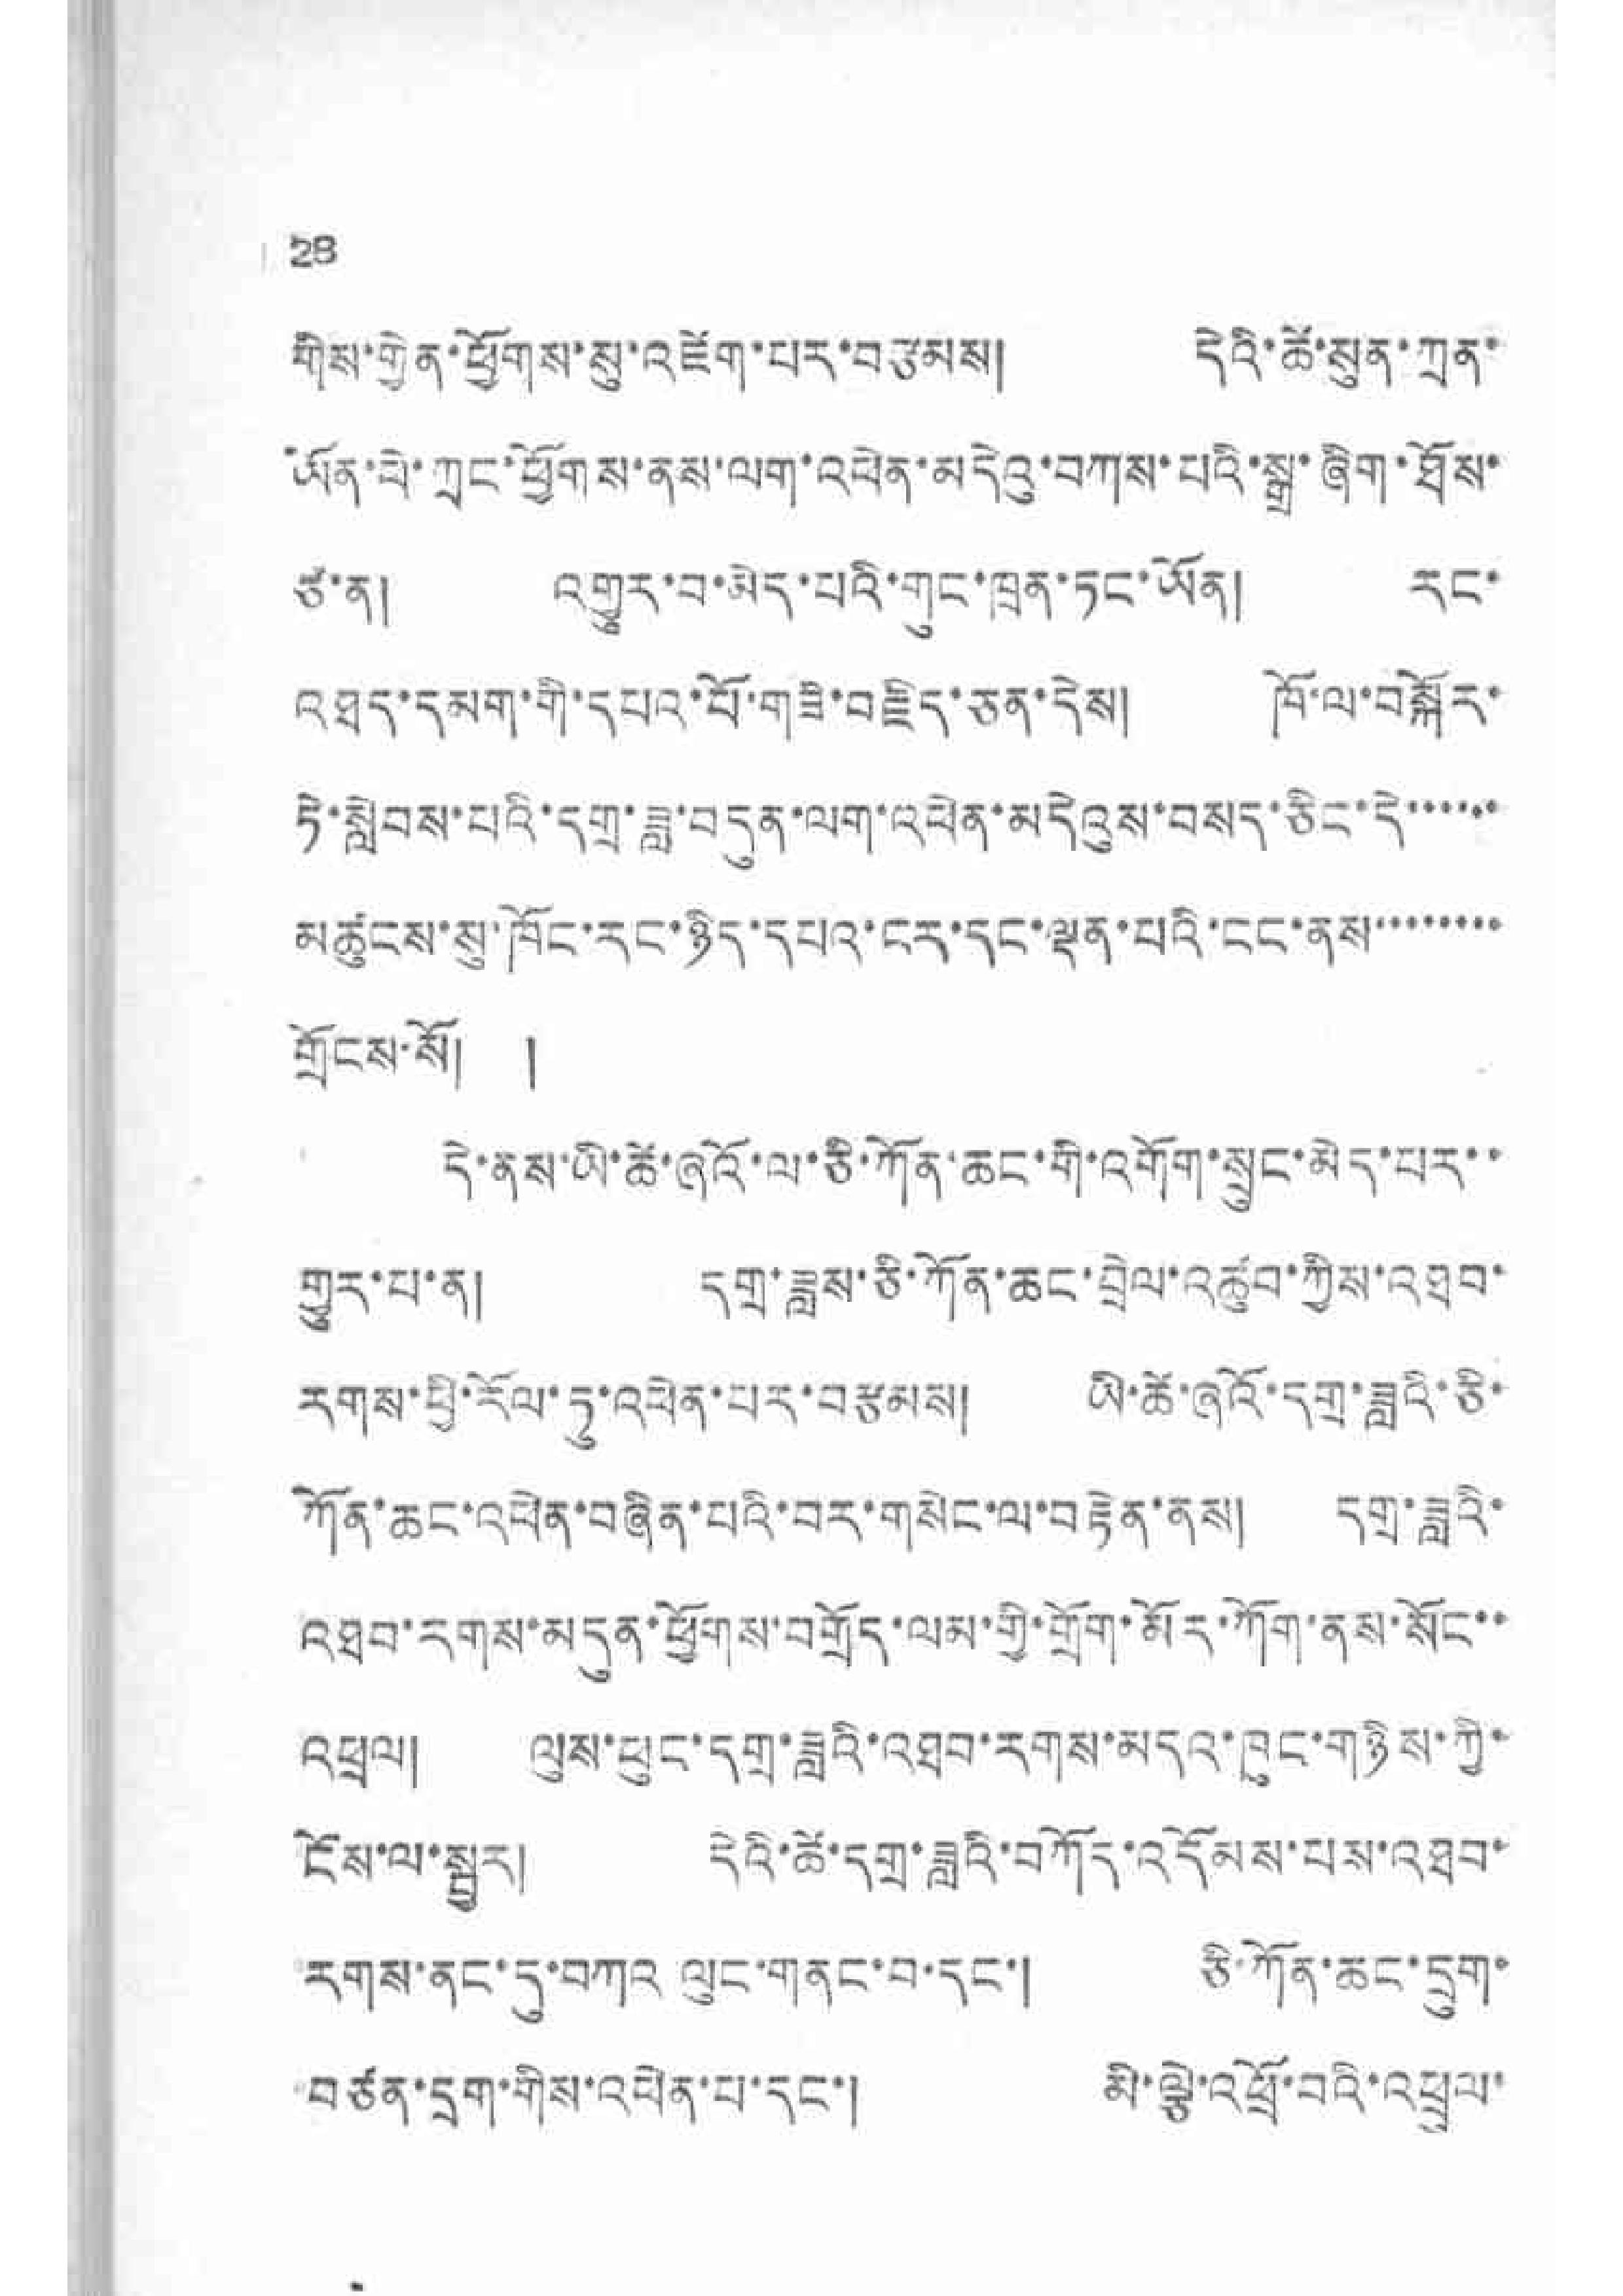28
གིས་གྱེན་ཕྱོགས་སུ་འཇོག་པར་བརྩམས། དེའི་ཚེ་སུན་ཀྲན་
ཡོན་ཕེ་ཀྲང་ཕྱོགས་ནས་ལག་འཕེན་མདེའུ་བཀས་པའི་སྒྲ་ཞིག་ཐོས་
ཙ་ན། འགྱུར་བ་མེད་པའི་གུང་ཁྲན་ཏང་ཡོན། རང་
འཐད་དམག་གི་དཔའ་པོ་གཟི་བརྗིད་ཅན་དེས། ཁོ་ལ་བསྐོར་
ཏེ་སླེབས་པའི་དགྲ་ཟླ་བདུན་ལག་འཕེན་མདེའུས་བསད་ཅིང་དེ་་་་་་
མཚུངས་སུ་ཁོང་རང་ཉིད་དཔའ་ངར་དང་སྡན་པའི་ངང་ནས་་་་་་་་
གྲོངས་སོ། །
དེ་ནས་ཡི་ཚེ་ཞའོ་ལ་ཅི་ཀོན་ཆང་གི་འགོག་སྲུང་མེད་པར་་
གྱུར་པ་ན། དགྲ་ཟླས་ཅི་ཀོན་ཆང་བྲེལ་འཚུབ་ཀྱིས་འཐབ་
རགས་ཕྱི་རོལ་ཏུ་འཕེན་པར་བརྩམས། ཡི་ཚེ་ཞའོ་དགྲ་ཟླའི་ཅི་
ཀོན་ཆང་འཕེན་བཞིན་པའི་བར་གསེང་ལ་བརྟེན་ནས། དགྲ་ཟླའི་
འཐབ་རགས་མདུན་ཕྱོགས་བགྲོད་ལམ་གྱི་གྲོག་མོར་ཀོག་ནས་སོང་་
འཕྲལ། ལུས་ཕུང་དགྲ་ཟླའི་འཐབ་རགས་མདའ་ཁུང་གཉིས་ཀྱི་
ངོས་ལ་སྦྱར། དེའི་ཚེ་དགྲ་ཟླའི་བཀོད་འདོམས་པས་འཐབ་
རགས་ནང་དུ་བཀའ་ལུང་གནང་བ་དང་། ཅི་ཀོན་ཆང་དྲུག་
བཙན་དྲག་གིས་འཕེན་པ་དང་། མི་ལྕེ་འཕྲོ་བའི་འཕྲུལ་
